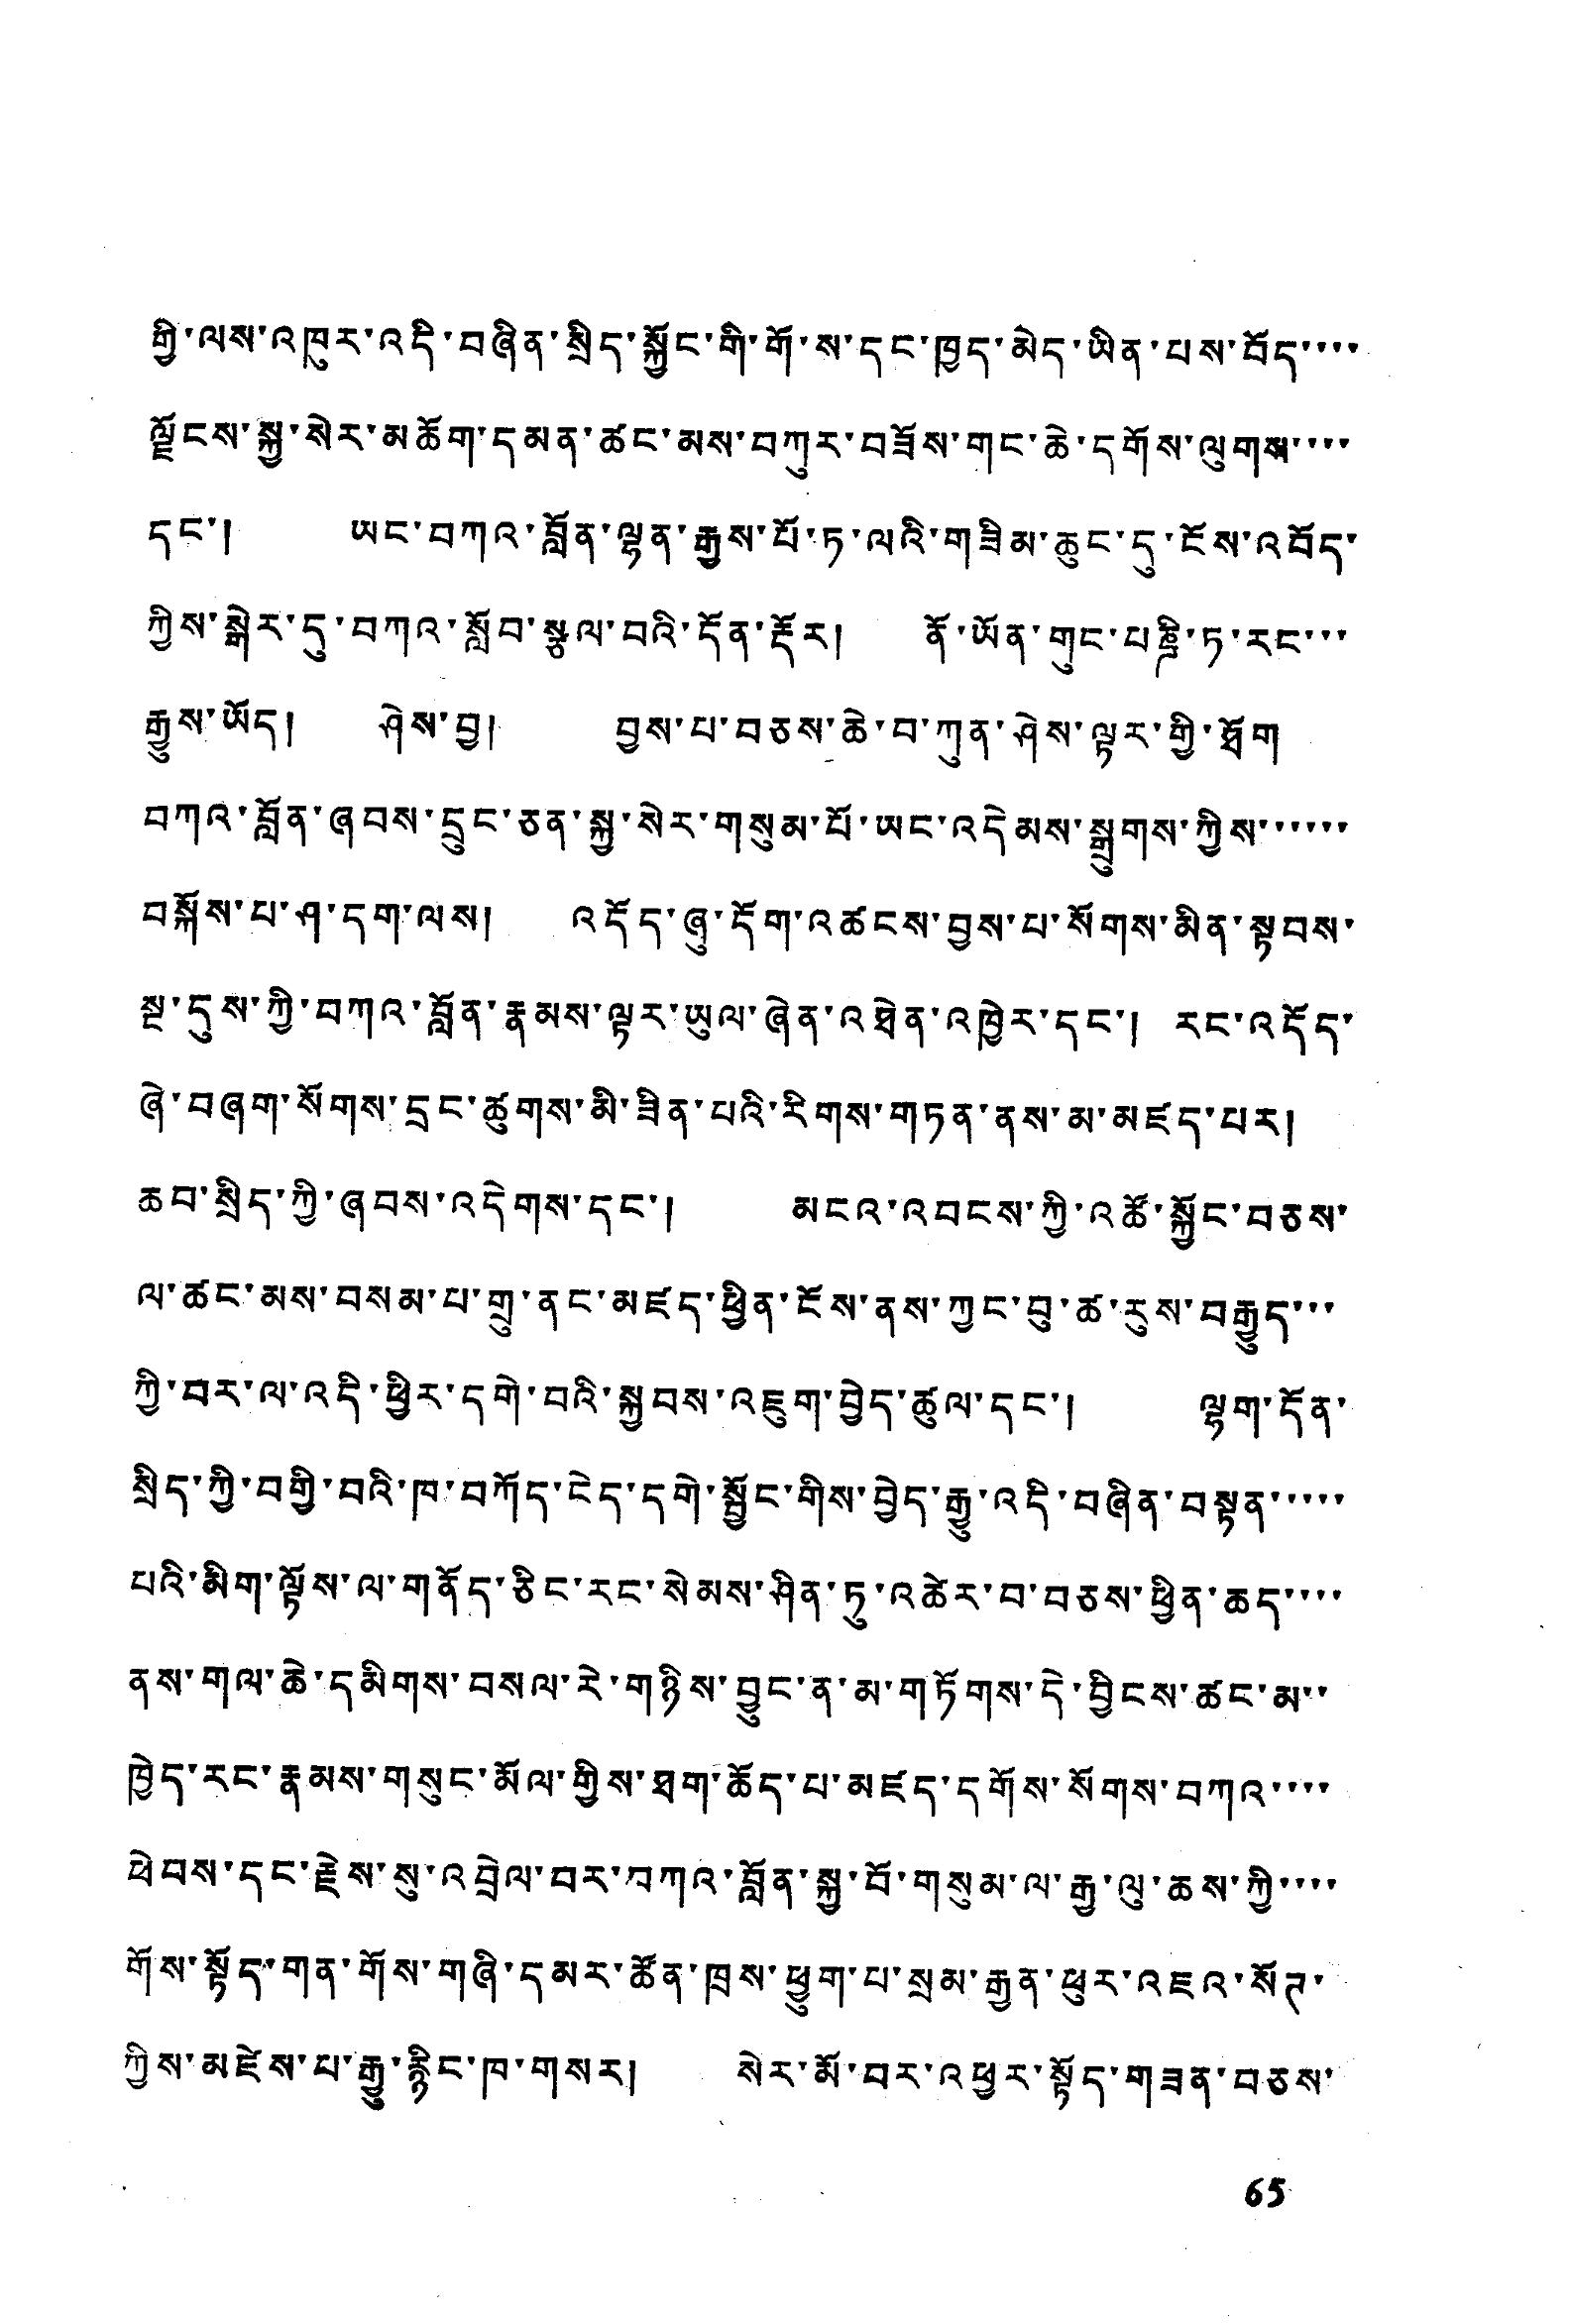གྱི་ལས་འཁུར་འདི་བཞིན་སྲིད་སྐྱོང་གི་གོ་ས་དང་ཁྱད་མེད་ཡིན་པས་བོད་་་་
ལྗོངས་སྐྱ་སེར་མཆོག་དམན་ཚང་མས་བཀུར་བཟོས་གང་ཆེ་དགོས་ལུགས་་་་
དང་། ཡང་བཀའ་བློན་ལྷན་རྒྱས་པོ་ཏ་ལའི་གཟིམས་ཆུང་དུ་ངོས་འབོད་
ཀྱིས་སྒེར་དུ་བཀའ་སློབ་སྩལ་བའི་དོན་རྡོར། ནོ་ཡོན་གུང་པཎྜི་ཏ་རང་་་
རྒྱུས་ཡོད། ཤེས་བྱ། བྱ་པ་བཅས་ཆེ་བ་ཀུན་ཤེས་ལྟར་གྱི་ཐོག
བཀའ་བློན་ཞབས་དྲུང་ཅན་སྐྱ་སེར་གསུམ་པོ་ཡང་འདེམས་སྒྲུགས་ཀྱིས་་་་་་
བསྐོས་པ་ཤ་དག་ལས། འདོད་ཞུ་དོག་འཚངས་བྱས་པ་སོགས་མིན་སྟབས་
སྔ་དུས་ཀྱི་བཀའ་བློན་རྣམས་ལྟར་ཡུལ་ཞེན་འཐེན་འཁྱེར་དང་། རང་འདོད་
ཞེ་བཞག་སོགས་དྲང་ཚུགས་མི་ཟིན་པའི་རིགས་གཏན་ནས་མ་མཛད་པར།
ཆབ་སྲིད་ཀྱི་ཞབས་འདེགས་དང་། མངའ་འབངས་ཀྱི་འཚོ་སྐྱོང་བཅས་
ལ་ཚང་མས་བསམ་པ་གྲུ་ནང་མཛད་ཕྱིན་ངོས་ནས་ཀྱང་བུ་ཚ་རུས་བརྒྱུད་་་
ཀྱི་བར་ལ་འདི་ཕྱིར་དགེ་བའི་སྐྱབས་འཇུག་བྱེད་ཚུལ་དང་། ལྷག་དོན་
སྲིད་ཀྱི་བགྱིས་བའི་ཁ་བཀོད་ངེད་དགེ་སྦྱོང་གིས་བྱེད་རྒྱུ་འདི་བཞིན་བསྟན་་་་་
པའི་མིག་ལྟོས་ལ་གནོད་ཅིང་རང་སེམས་ཤིན་ཏུ་འཚེར་བ་བཅས་ཕྱིན་ཆད་་་་
ནས་གལ་ཆེ་དམིགས་བསལ་རེ་གཉིས་བྱུང་ན་མ་གཏོགས་དེ་བྱིངས་ཚང་མ་་
ཁྱེད་རང་རྣམས་གསུང་མོལ་གྱིས་ཐག་ཆོད་པ་མཛད་དགོས་སོགས་བཀའ་་་་
ཕེབས་དང་རྗེས་སུ་འབྲེལ་བར་བཀའ་བློན་སྐྱ་བོ་གསུམ་ལ་རྒྱ་ལུ་ཆས་ཀྱི་་་་
གོས་སྟོད་གན་གོས་གཞི་དམར་ཚོན་ཁྲས་ཕྱུག་པ་སྲམ་རྒྱན་ཕུར་འཇའ་སོཊ་
ཀྱིས་མཛེས་པ་རྒྱུ་རྙིང་ཁ་གསར། སེར་མོ་བར་འཕྱར་སྟོད་གཟན་བཅས་
65
